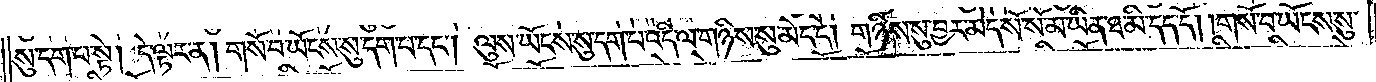སུ་དག་པ་སྟེ། དེ་ལྟར་ན། གསོ་བ་ཡོངས་སུ་དག་པ་དང༌། ལུས་ཡོངས་སུ་དག་པ་འདི་ལ་གཉིས་སུ་མེད་དེ། གཉིས་སུ་བྱར་མེད་སོ་སོ་མ་ཡིན་ཐ་མི་དད་དོ། །གསོ་བ་ཡོངས་སུ་
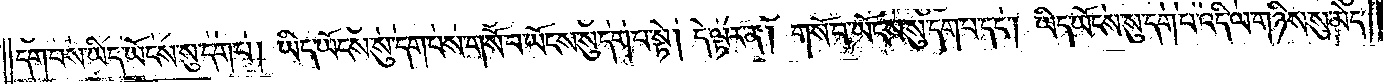དག་པས་ཡིད་ཡོངས་སུ་དག་པ། ཡིད་ཡོངས་སུ་དག་པས་གསོ་བ་ཡོངས་སུ་དག་པ་སྟེ། དེ་ལྟར་ན། གསོ་བ་ཡོངས་སུ་དག་པ་དང༌། ཡིད་ཡོངས་སུ་དག་པ་འདི་ལ་གཉིས་སུ་མེད་
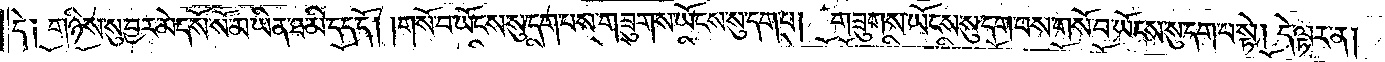དེ༑ གཉིས་སུ་བྱར་མེད་སོ་སོ་མ་ཡིན་ཐ་མི་དད་དོ། །གསོ་བ་ཡོངས་སུ་དག་པས་གཟུགས་ཡོངས་སུ་དག་པ། གཟུགས་ཡོངས་སུ་དག་པས་གསོ་བ་ཡོངས་སུ་དག་པ་སྟེ། དེ་ལྟར་ན།
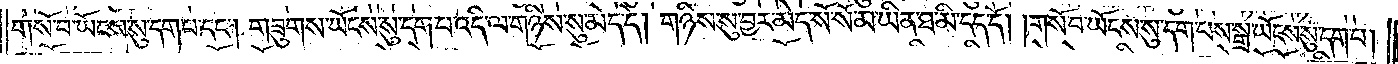གསོ་བ་ཡོངས་སུ་དག་པ་དང༌། གཟུགས་ཡོངས་སུ་དག་པ་འདི་ལ་གཉིས་སུ་མེད་དེ། གཉིས་སུ་བྱར་མེད་སོ་སོ་མ་ཡིན་ཐ་མི་དད་དོ། །གསོ་བ་ཡོངས་སུ་དག་པས་སྒྲ་ཡོངས་སུ་དག་པ།
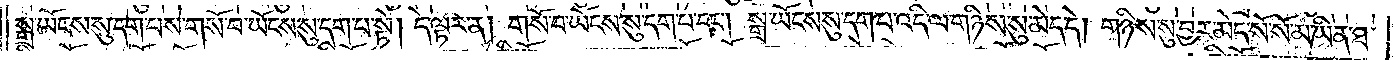སྒྲ་ཡོངས་སུ་དག་པས་གསོ་བ་ཡོངས་སུ་དག་པ་སྟེ། དེ་ལྟར་ན། གསོ་བ་ཡོངས་སུ་དག་པ་དང༌། སྒྲ་ཡོངས་སུ་དག་པ་འདི་ལ་གཉིས་སུ་མེད་དེ། གཉིས་སུ་བྱར་མེད་སོ་སོ་མ་ཡིན་ཐ་
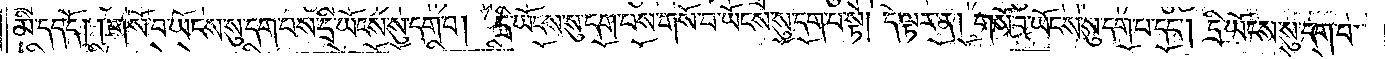མི་དད་དོ། །གསོ་བ་ཡོངས་སུ་དག་པས་དྲི་ཡོངས་སུ་དག་པ། དྲི་ཡོངས་སུ་དག་པས་གསོ་བ་ཡོངས་སུ་དག་པ་སྟེ། དེ་ལྟར་ན། གསོ་བ་ཡོངས་སུ་དག་པ་དང༌། དྲི་ཡོངས་སུ་དག་པ་
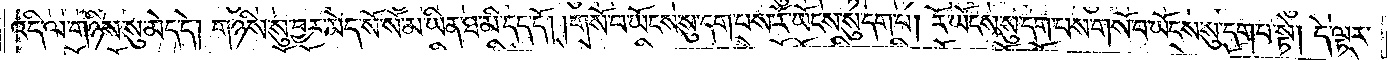འདི་ལ་གཉིས་སུ་མེད་དེ། གཉིས་སུ་བྱར་མེད་སོ་སོ་མ་ཡིན་ཐ་མི་དད་དོ། །གསོ་བ་ཡོངས་སུ་དག་པས་རོ་ཡོངས་སུ་དག་པ། རོ་ཡོངས་སུ་དག་པས་གསོ་བ་ཡོངས་སུ་དག་པ་སྟེ། དེ་ལྟར་
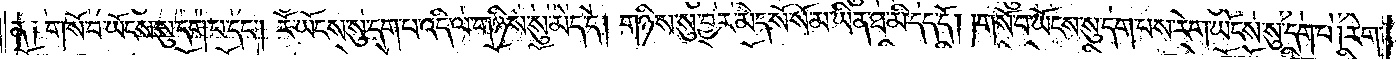ན༑ གསོ་བ་ཡོངས་སུ་དག་པ་དང༌། རོ་ཡོངས་སུ་དག་པ་འདི་ལ་གཉིས་སུ་མེད་དེ། གཉིས་སུ་བྱར་མེད་སོ་སོ་མ་ཡིན་ཐ་མི་དད་དོ། །གསོ་བ་ཡོངས་སུ་དག་པས་རེག་ཡོངས་སུ་དག་པ། རེག་
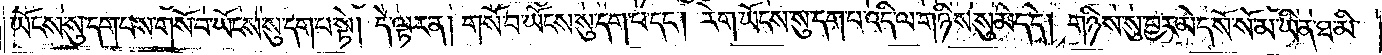ཡོངས་སུ་དག་པས་གསོ་བ་ཡོངས་སུ་དག་པ་སྟེ། དེ་ལྟར་ན། གསོ་བ་ཡོངས་སུ་དག་པ་དང༌། རེག་ཡོངས་སུ་དག་པ་འདི་ལ་གཉིས་སུ་མེད་དེ། གཉིས་སུ་བྱར་མེད་སོ་སོ་མ་ཡིན་ཐ་མི་
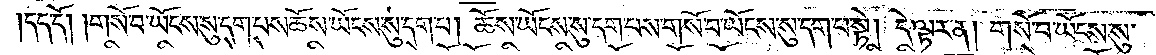དད་དོ། །གསོ་བ་ཡོངས་སུ་དག་པས་ཆོས་ཡོངས་སུ་དག་པ། ཆོས་ཡོངས་སུ་དག་པས་གསོ་བ་ཡོངས་སུ་དག་པ་སྟེ། དེ་ལྟར་ན། གསོ་བ་ཡོངས་སུ་
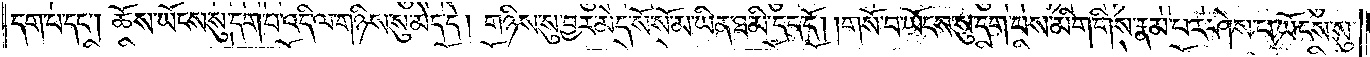དག་པ་དང༌། ཆོས་ཡོངས་སུ་དག་པ་འདི་ལ་གཉིས་སུ་མེད་དེ། གཉིས་སུ་བྱར་མེད་སོ་སོ་མ་ཡིན་ཐ་མི་དད་དོ། །གསོ་བ་ཡོངས་སུ་དག་པས་མིག་གི་རྣམ་པར་ཤེས་པ་ཡོངས་སུ་
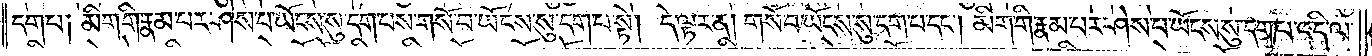དག་པ༑ མིག་གི་རྣམ་པར་ཤེས་པ་ཡོངས་སུ་དག་པས་གསོ་བ་ཡོངས་སུ་དག་པ་སྟེ། དེ་ལྟར་ན། གསོ་བ་ཡོངས་སུ་དག་པ་དང༌། མིག་གི་རྣམ་པར་ཤེས་པ་ཡོངས་སུ་དག་པ་འདི་ལ་
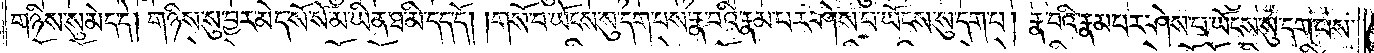གཉིས་སུ་མེད་དེ། གཉིས་སུ་བྱར་མེད་སོ་སོ་མ་ཡིན་ཐ་མི་དད་དོ། །གསོ་བ་ཡོངས་སུ་དག་པས་རྣ་བའི་རྣམ་པར་ཤེས་པ་ཡོངས་སུ་དག་པ། རྣ་བའི་རྣམ་པར་ཤེས་པ་ཡོངས་སུ་དག་པས་
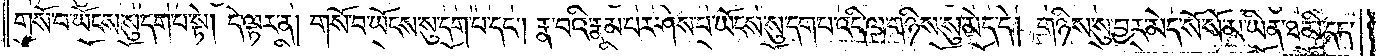གསོ་བ་ཡོངས་སུ་དག་པ་སྟེ། དེ་ལྟར་ན། གསོ་བ་ཡོངས་སུ་དག་པ་དང༌། རྣ་བའི་རྣམ་པར་ཤེས་པ་ཡོངས་སུ་དག་པ་འདི་ལ་གཉིས་སུ་མེད་དེ། གཉིས་སུ་བྱར་མེད་སོ་སོ་མ་ཡིན་ཐ་མི་དད་
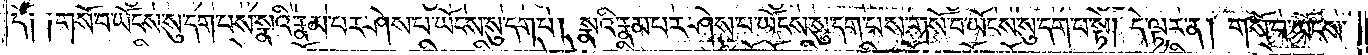དོ༑ ༑གསོ་བ་ཡོངས་སུ་དག་པས་སྣའི་རྣམ་པར་ཤེས་པ་ཡོངས་སུ་དག་པ། སྣའི་རྣམ་པར་ཤེས་པ་ཡོངས་སུ་དག་པས་གསོ་བ་ཡོངས་སུ་དག་པ་སྟེ། དེ་ལྟར་ན། གསོ་བ་ཡོངས་
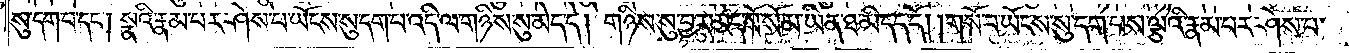སུ་དག་པ་དང༌། སྣའི་རྣམ་པར་ཤེས་པ་ཡོངས་སུ་དག་པ་འདི་ལ་གཉིས་སུ་མེད་དེ། གཉིས་སུ་བྱར་མེད་སོ་སོ་མ་ཡིན་ཐ་མི་དད་དོ། །གསོ་བ་ཡོངས་སུ་དག་པས་ལྕེའི་རྣམ་པར་ཤེས་པ་
